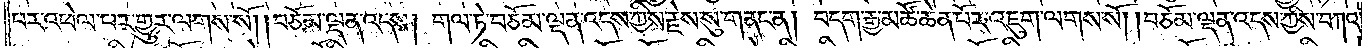པར་འཕེལ་བར་གྱུར་ལགས་སོ། །བཅོམ་ལྡན་འདས། གལ་ཏེ་བཅོམ་ལྡན་འདས་ཀྱིས་རྗེས་སུ་གནང་ན། བདག་རྒྱ་མཚོ་ཆེན་པོར་འཇུག་ལགས་སོ། །བཅོམ་ལྡན་འདས་ཀྱིས་བཀའ་
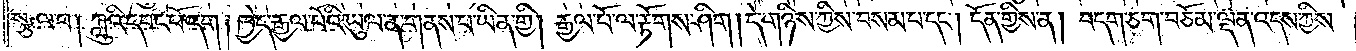སྩལ་པ། ཀླུའི་དབང་པོ་དག །ཁྱེད་རྒྱལ་པོའི་ཡུལ་ན་གནས་པ་ཡིན་གྱི། རྒྱལ་པོ་ལ་རྟོགས་ཤིག །དེ་གཉིས་ཀྱིས་བསམ་པ་དང༌། དོན་གྱིས་ན། བདག་ཅག་བཅོམ་ལྡན་འདས་ཀྱིས་
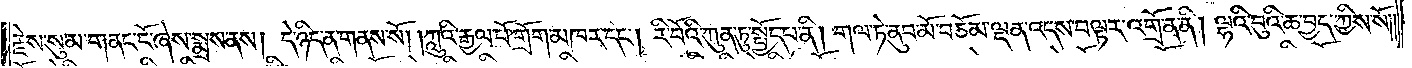རྗེས་སུ་མ་གནང་ངོ་ཞེས་སྨྲས་ནས། དེ་ཉིད་ན་གནས་སོ། །ཀླུའི་རྒྱལ་པོ་གྲོག་མཁར་དང༌། རི་བོའི་ཀུན་ཏུ་སྤྱོད་པ་ནི། གལ་ཏེ་ནུབ་མོ་བཅོམ་ལྡན་འདས་བལྟར་འགྲོ་ན་ནི། ལྷའི་བུའི་ཆ་བྱད་ཀྱིས་སོ།
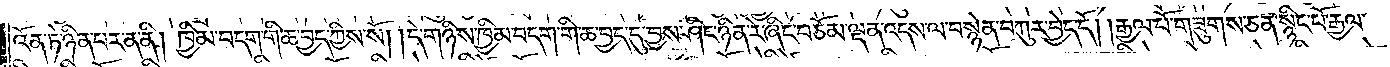འོན་ཏེ་ཉིན་པར་ན་ནི། ཁྱིམ་བདག་གི་ཆ་བྱད་ཀྱིས་སོ། །དེ་གཉིས་ཁྱིམ་བདག་གི་ཆ་བྱད་དུ་བྱས་ཤིང་ཉིན་རེ་ཞིང་བཅོམ་ལྡན་འདས་ལ་བསྙེན་བཀུར་བྱེད་དོ། །རྒྱལ་པོ་གཟུགས་ཅན་སྙིང་པོ་རྒྱལ་
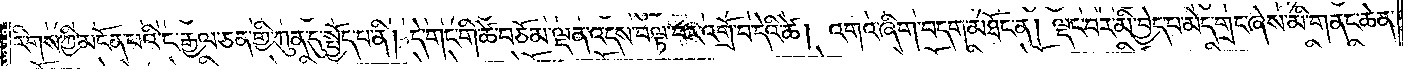རིགས་ཀྱི་མངོན་པའི་ང་རྒྱལ་ཅན་གྱི་ཀུན་དུ་སྤྱོད་པ་ནི། དེ་གང་གི་ཚེ་བཅོམ་ལྡན་འདས་བལྟ་བར་འགྲོ་བ་དེའི་ཚེ། འགའ་ཞིག་བདག་མཐོང་ན། ལྡང་བར་མི་བྱེད་པ་མེད་གྲང་ཞེས་མི་གནང་ཆེན་
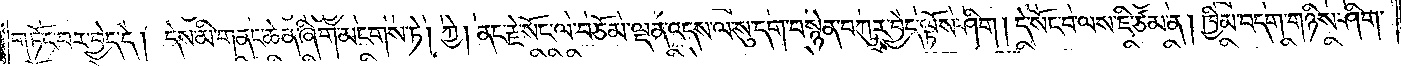གཏོང་བར་བྱེད་དེ། དེས་མི་གནང་ཆེན་ཞིག་མངགས་ཏེ། ཀྱེ། ནང་རྗེ་སོང་ལ་བཅོམ་ལྡན་འདས་ལ་སུ་དག་བསྙེན་བཀུར་བྱེད་ལྟོས་ཤིག །དེ་སོང་བ་ལས་ཇི་ཙམ་ན། ཁྱིམ་བདག་གཉིས་ཤིག་
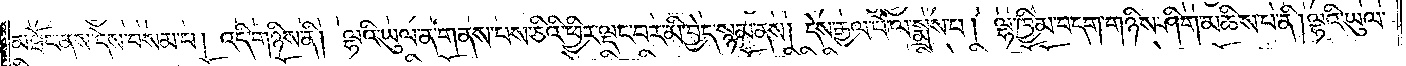མཐོང་ནས་དེས་བསམ་པ། འདི་གཉིས་ནི། ལྷའི་ཡུལ་ན་གནས་པས་ཅིའི་ཕྱིར་ལྡང་བར་མི་བྱེད་སྙམ་ནས། དེས་རྒྱལ་པོ་ལ་སྨྲས་པ། ལྷ་ཁྱིམ་བདག་གཉིས་ཤིག་མཆིས་པ་ནི། ལྷའི་ཡུལ་
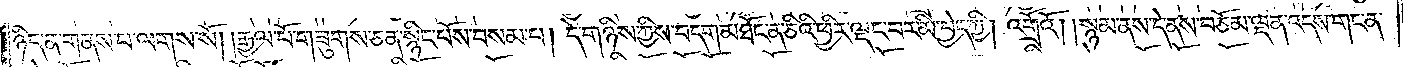ཉིད་ན་གནས་པ་ལགས་སོ། །རྒྱལ་པོ་གཟུགས་ཅན་སྙིང་པོས་བསམ་པ། དེ་གཉིས་ཀྱིས་བདག་མཐོང་ན་ཅིའི་ཕྱིར་ལྡང་བར་མི་བྱེད་ཀྱི། འགྲོའོ། །སྙམ་ནས་དེ་ནས་བཅོམ་ལྡན་འདས་གང་ན་
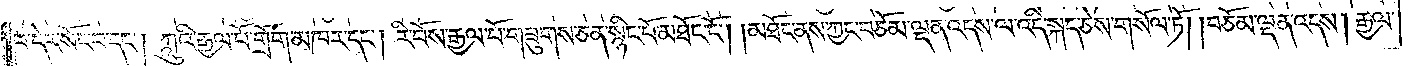བ་དེར་སོང་བ་དང༌། ཀླུའི་རྒྱལ་པོ་གྲོག་མཁར་དང༌། རི་བོས་རྒྱལ་པོ་གཟུགས་ཅན་སྙིང་པོ་མཐོང་ངོ༌། །མཐོང་ནས་ཀྱང་བཅོམ་ལྡན་འདས་ལ་འདི་སྐད་ཅེས་གསོལ་ཏོ། །བཅོམ་ལྡན་འདས། རྒྱལ་
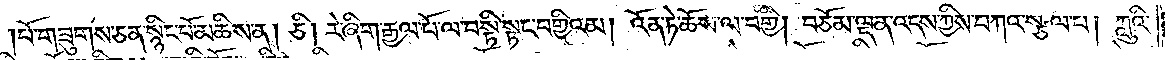པོ་གཟུགས་ཅན་སྙིང་པོ་མཆིས་ན། ཅི། རེ་ཞིག་རྒྱལ་པོ་ལ་བསྟི་སྟང་བགྱིའམ། འོན་ཏེ་ཆོས་ལ་བགྱི། བཅོམ་ལྡན་འདས་ཀྱིས་བཀའ་སྩལ་པ། ཀླུའི་
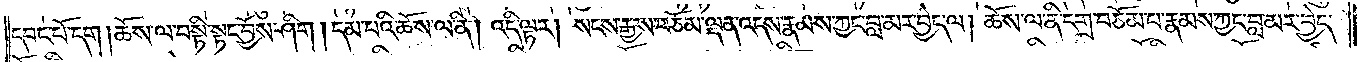དབང་པོ་དག །ཆོས་ལ་བསྟི་སྟང་བྱོས་ཤིག །དམ་པའི་ཆོས་ལ་ནི། འདི་ལྟར། སངས་རྒྱས་བཅོམ་ལྡན་འདས་རྣམས་ཀྱང་བླ་མར་བྱེད་ལ། ཆོས་ལ་ནི་དགྲ་བཅོམ་པ་རྣམས་ཀྱང་བླ་མར་བྱེད་
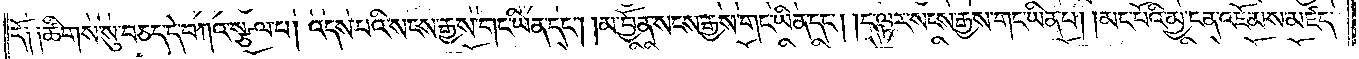དོ༑ ༑ཚིགས་སུ་བཅད་དེ་བཀའ་སྩལ་པ། འདས་པའི་སངས་རྒྱས་གང་ཡིན་དང༌། །མ་བྱོན་སངས་རྒྱས་གང་ཡིན་དང༌། །ད་ལྟར་སངས་རྒྱས་གང་ཡིན་པ། །མང་པོའི་མྱ་ངན་འཇོམས་མཛད་
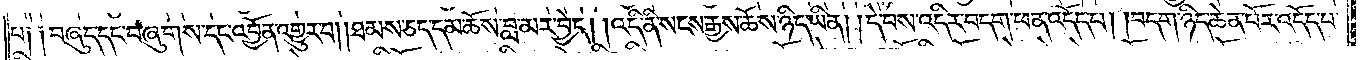པ༑ ༑བཞུད་དང་བཞུགས་དང་འབྱོན་འགྱུར་བ། །ཐམས་ཅད་དམ་ཆོས་བླ་མར་བྱེད། །འདི་ནི་སངས་རྒྱས་ཆོས་ཉིད་ཡིན། །དེ་བས་འདིར་བདག་ཕན་འདོད་པ། །བདག་ཉིད་ཆེན་པོར་འདོད་པ་
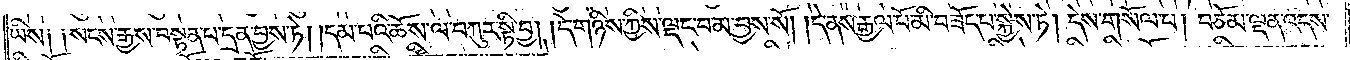ཡིས༑ ༑སངས་རྒྱས་བསྟན་པ་དྲན་བྱས་ཏེ། །དམ་པའི་ཆོས་ལ་བཀུར་སྟི་བྱ། །དེ་གཉིས་ཀྱིས་ལྡང་བ་མ་བྱས་སོ། །དེ་ནས་རྒྱལ་པོ་མི་བཟོད་པ་སྐྱེས་ཏེ། དེས་གསོལ་པ། བཅོམ་ལྡན་འདས་
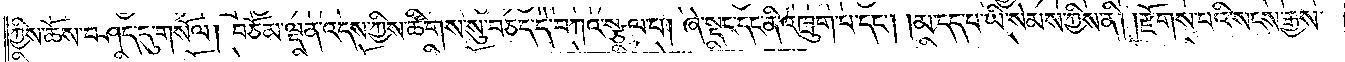ཀྱིས་ཆོས་བཤད་དུ་གསོལ། བཅོམ་ལྡན་འདས་ཀྱིས་ཚིགས་སུ་བཅད་དེ་བཀའ་སྩལ་པ། ཞེ་སྡང་དང་ནི་འཁྲུག་པ་དང༌། །མ་དད་པ་ཡི་སེམས་ཀྱིས་ནི། །རྫོགས་པའི་སངས་རྒྱས་
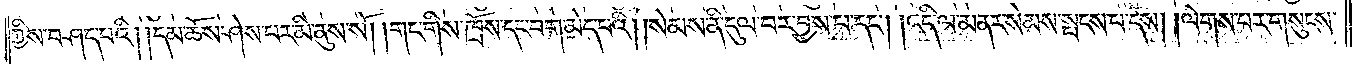ཀྱིས་བཤད་པའི། །དམ་ཆོས་ཤེས་པར་མི་ནུས་སོ། །གང་གིས་ཁྲོས་དང་བག་མེད་པའི། །སེམས་ནི་དུལ་བར་བྱས་པ་དང༌། །འདི་ལ་མནར་སེམས་སྤངས་པ་དེས། །ལེགས་པར་གསུངས་
